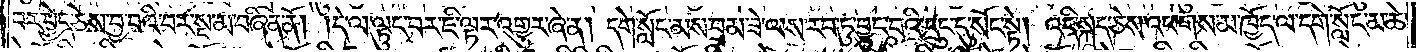བར་བྱེད་ཅེས་བྱ་བའི་བར་སྔ་མ་བཞིན་ནོ། །དེ་ལ་ལྟུང་བར་ཇི་ལྟར་འགྱུར་ཞེ་ན། དགེ་སློང་མས་བྲམ་ཟེ་ལས་རབ་ཏུ་བྱུང་བའི་དྲུང་དུ་སོང་སྟེ། འདི་སྐད་ཅེས་འཕགས་མ་ཁྱོད་ལ་དགེ་སློང་མ་ཆེ་
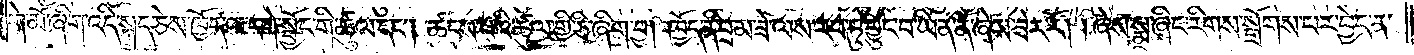གེ་མོ་ཞིག་འདི་སྐད་ཅེས་ཁྱོད་ལ་དགེ་སྦྱོང་གི་ཚུལ་དང༌། ཚངས་པའི་ཚུལ་གྱི་ཅི་ཞིག་བྱ། ཁྱོད་ནི་བྲམ་ཟེ་ལས་རབ་ཏུ་བྱུང་བ་ཡིན་ནོ་ཞེས་ཟེར་རོ། །ཞེས་སྨྲ་ཞིང་རིགས་སྒྲོགས་པར་བྱེད་ན་
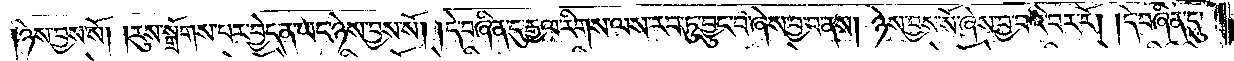ཉེས་བྱས་སོ། །རུས་སྒྲོགས་པར་བྱེད་ན་ཡང་ཉེས་བྱས་སོ། །དེ་བཞིན་དུ་རྒྱལ་རིགས་ལས་རབ་ཏུ་བྱུང་བ་ཞེས་བྱ་བ་ནས། ཉེས་བྱས་སོ་ཞེས་བྱ་བའི་བར་རོ། །དེ་བཞིན་དུ་
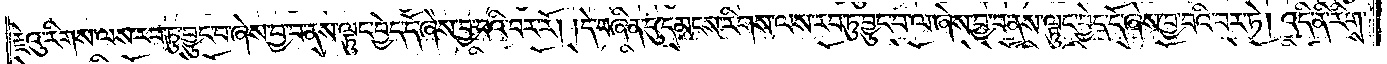རྗེའུ་རིགས་ལས་རབ་ཏུ་བྱུང་བ་ཞེས་བྱ་བ་ནས་ལྟུང་བྱེད་དོ་ཞེས་བྱ་བའི་བར་རོ། །དེ་བཞིན་དུ་དམངས་རིགས་ལས་རབ་ཏུ་བྱུང་བ་ལ་ཞེས་བྱ་བ་ནས་ལྟུང་བྱེད་དོ་ཞེས་བྱ་བའི་བར་ཏེ། འདི་ནི་རིགས་
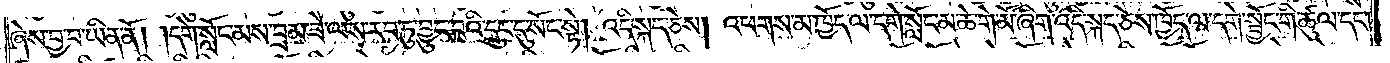ཞེས་བྱ་བ་ཡིན་ནོ། །དགེ་སློང་མས་བྲམ་ཟེ་ལས་རབ་ཏུ་བྱུང་བའི་དྲུང་དུ་སོང་སྟེ། འདི་སྐད་ཅེས། འཕགས་མ་ཁྱོད་ལ་དགེ་སློང་མ་ཆེ་གེ་མོ་ཞིག་འདི་སྐད་ཅེས་ཁྱོད་ལ་དགེ་སྦྱོང་གི་ཚུལ་དང༌།
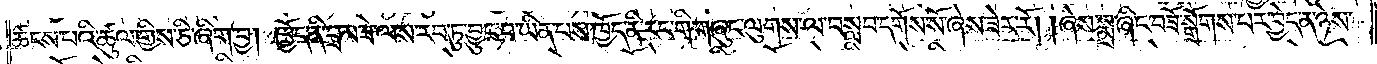ཚངས་པའི་ཚུལ་གྱིས་ཅི་ཞིག་བྱ། ཁྱོད་ནི་བྲམ་ཟེ་ལས་རབ་ཏུ་བྱུང་བ་ཡིན་པས་ཁྱོད་ནི་རང་གི་གཞུང་ལུགས་ལ་བསླབ་དགོས་སོ་ཞེས་ཟེར་རོ། །ཞེས་སྨྲ་ཞིང་བཟོ་སྒྲོགས་པར་བྱེད་ན་ཉེས་
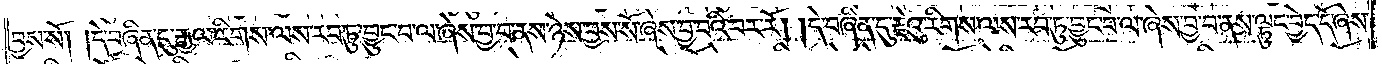བྱས་སོ། །དེ་བཞིན་དུ་རྒྱལ་རིགས་ལས་རབ་ཏུ་བྱུང་བ་ལ་ཞེས་བྱ་བ་ནས་ཉེས་བྱས་སོ་ཞེས་བྱ་བའི་བར་རོ། །དེ་བཞིན་དུ་རྗེའུ་རིགས་ལས་རབ་ཏུ་བྱུང་བ་ལ་ཞེས་བྱ་བ་ན་ལྟུང་བྱེད་དོ་ཞེས་
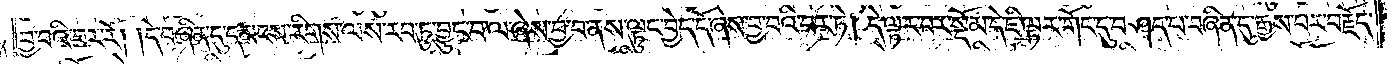བྱ་བའི་བར་རོ། །དེ་བཞིན་དུ་དམངས་རིགས་ལས་རབ་ཏུ་བྱུང་བ་ལ་ཞེས་བྱ་བ་ནས་ལྟུང་བྱེད་དོ་ཞེས་བྱ་བའི་བར་ཏེ། དེ་ལྟར་བར་སྡོམ་དེ་ཇི་ལྟར་གོང་དུ་བཤད་པ་བཞིན་དུ་རྒྱས་པར་བརྗོད་
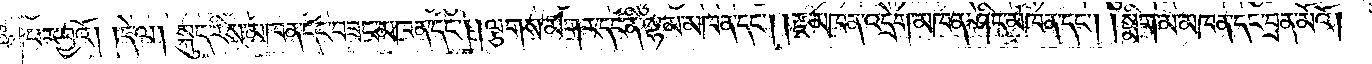པར་བྱའོ། །དེ་ལ། སྐུད་རིས་མཁན་དང་བཟང་མཁན་དང༌། །ལྕགས་མགར་དང་ནི་ལྷམ་མཁན་དང༌། །རྫ་མཁན་འདྲེག་མཁན་ཤིང་མཁན་དང༌། །སྨིག་མ་མཁན་དང་བྲན་མོའོ། །
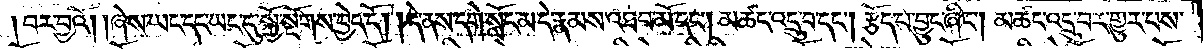བར་བྱའོ། །ཞེས་ཡང་དང་ཡང་དུ་སྐྱོ་སྔོགས་བྱེད་དོ། །དེ་ནས་དགེ་སློང་མ་དེ་རྣམས་འཐབ་མོ་དང༌། མཚང་འདྲུ་བ་དང༌། རྩོད་པ་བྱུང་ཞིང༌། མཚང་འདྲུ་བར་གྱུར་པས་
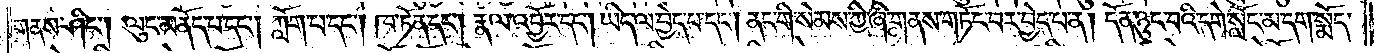གནས་ཤིང༌། ལུང་མནོད་པ་དང༌། ཀློག་པ་དང༌། ཁ་ཏོན་དང༌། རྣལ་འབྱོར་དང༌། ཡིད་ལ་བྱེད་པ་དང༌། ནང་གི་སེམས་ཀྱི་ཞི་གནས་གཏོང་བར་བྱེད་པ་ན། དོན་ཉུང་བའི་དགེ་སློང་མ་དག་སྨོད་
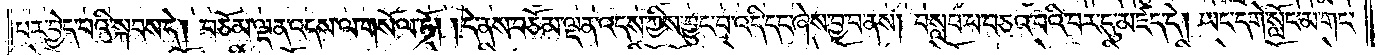པར་བྱེད་པའི་སྐབས་དེ། བཅོམ་ལྡན་འདས་ལ་གསོལ་ཏོ། །དེ་ནས་བཅོམ་ལྡན་འདས་ཀྱིས་བྱུང་བ་འདི་དང་ཞེས་བྱ་བ་ནས། བསླབ་པ་བཅའ་བའི་བར་དུ་མཛད་དེ། ཡང་དགེ་སློང་མ་གང་
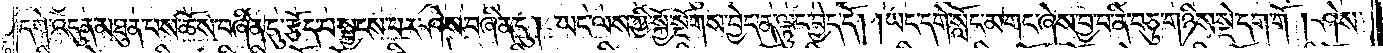དགེ་འདུན་མཐུན་པས་ཆོས་བཞིན་དུ་རྩོད་པ་སྦྱངས་པར་ཤེས་བཞིན་དུ། ཡང་ལས་ཀྱི་སྐྱོ་སྔོགས་བྱེད་ན་ལྟུང་བྱེད་དོ། །ཡང་དགེ་སློང་མ་གང་ཞེས་བྱ་བ་ནི་བཅུ་གཉིས་སྡེ་དག་གོ །ཤེས་
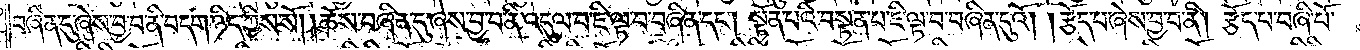བཞིན་དུ་ཞེས་བྱ་བ་ནི་བདག་ཉིད་ཀྱིས་སོ། །ཆོས་བཞིན་དུ་ཞེས་བྱ་བ་ནི་འདུལ་བ་ཇི་ལྟ་བ་བཞིན་དང༌། སྟོན་པའི་བསྟན་པ་ཇི་ལྟ་བཞིན་དུའོ། །རྩོད་པ་ཞེས་བྱ་བ་ནི། རྩོད་པ་བཞི་པོ་
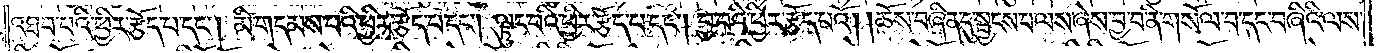འཐབ་པའི་ཕྱིར་རྩོད་པ་དང༌། མི་གདམས་པའི་ཕྱིར་རྩོད་པ་དང༌། ལྟུང་བའི་ཕྱིར་རྩོད་པ་དང༌། བྱ་བའི་ཕྱིར་རྩོད་པའོ། །ཆོས་བཞིན་དུ་སྦྱངས་པ་ལས་ཞེས་བྱ་བ་ནི་གསོལ་བ་དང་བཞིའི་ལས་
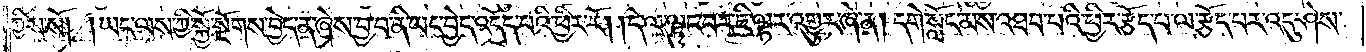ཀྱིས་སོ། །ཡང་ལས་ཀྱི་སྐྱོ་སྔོགས་བྱེད་ན་ཞེས་བྱ་བ་ནི་ཡང་བྱེད་འདོད་པའི་ཕྱིར་རོ། །དེ་ལ་ལྟུང་བར་ཇི་ལྟར་འགྱུར་ཞེ་ན། དགེ་སློང་མས་འཐབ་པའི་ཕྱིར་རྩོད་པ་ལ་རྩོད་པར་འདུ་ཤེས་
